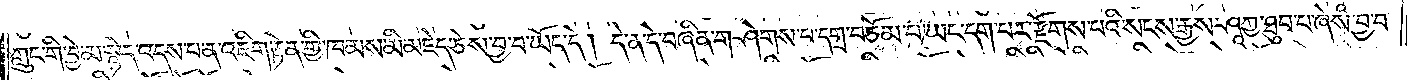ཀླུང་གི་བྱེ་མ་སྙེད་འདས་པ་ན་འཇིག་རྟེན་གྱི་ཁམས་མི་མཇེད་ཅེས་བྱ་བ་ཡོད་དེ། དེ་ན་དེ་བཞིན་གཤེགས་པ་དགྲ་བཅོམ་པ་ཡང་དག་པར་རྫོགས་པའི་སངས་རྒྱས་ཤཱཀྱ་ཐུབ་པ་ཞེས་བྱ་བ་
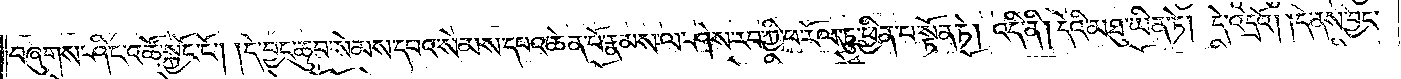བཞུགས་ཤིང་འཚོ་སྐྱོང་ངོ༌། །དེ་བྱང་ཆུབ་སེམས་དཔའ་སེམས་དཔའ་ཆེན་པོ་རྣམས་ལ་ཤེས་རབ་ཀྱི་ཕ་རོལ་ཏུ་ཕྱིན་པ་སྟོན་ཏེ། འདི་ནི། དེའི་མཐུ་ཡིན་ཏེ། དེ་འདྲའོ། །དེ་ནས་བྱང་
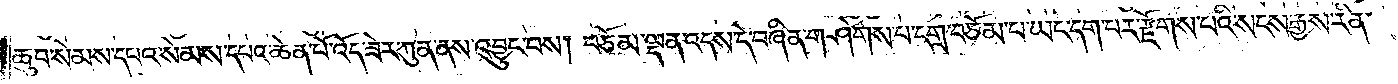ཆུབ་སེམས་དཔའ་སེམས་དཔའ་ཆེན་པོ་འོད་ཟེར་ཀུན་ནས་འབྱུང་བས། བཅོམ་ལྡན་འདས་དེ་བཞིན་གཤེགས་པ་དགྲ་བཅོམ་པ་ཡང་དག་པར་རྫོགས་པའི་སངས་རྒྱས་རིན་
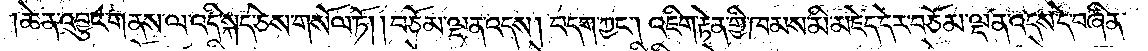ཆེན་འབྱུང་གནས་ལ་འདི་སྐད་ཅེས་གསོལ་ཏོ། །བཅོམ་ལྡན་འདས། བདག་ཀྱང༌། འཇིག་རྟེན་གྱི་ཁམས་མི་མཇེད་དེར་བཅོམ་ལྡན་འདས་དེ་བཞིན་
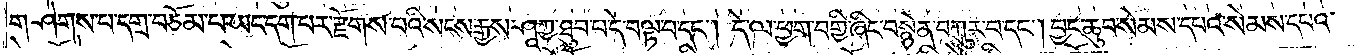གཤེགས་པ་དགྲ་བཅོམ་པ་ཡང་དག་པར་རྫོགས་པའི་སངས་རྒྱས་ཤཱཀྱ་ཐུབ་པ་དེ་བལྟ་བ་དང༌། དེ་ལ་ཕྱག་བགྱི་ཞིང་བསྙེན་བཀུར་བ་དང༌། བྱང་ཆུབ་སེམས་དཔའ་སེམས་དཔའ་
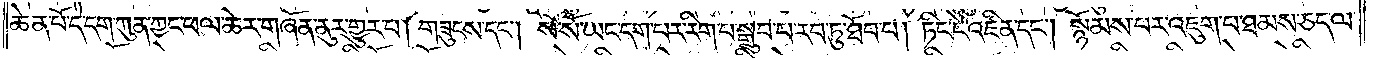ཆེན་པོ་དེ་དག་ཀུན་ཀྱང་ཕལ་ཆེར་གཞོན་ནུར་གྱུར་པ། གཟུངས་དང༌། སོ་སོ་ཡང་དག་པར་རིག་པ་སྒྲུབ་པ་རབ་ཏུ་ཐོབ་པ། ཏིང་ངེ་འཛིན་དང༌། སྙོམས་པར་འཇུག་པ་ཐམས་ཅད་ལ་
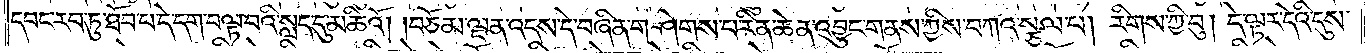དབང་རབ་ཏུ་ཐོབ་པ་དེ་དག་བལྟ་བའི་སླད་དུ་མཆིའོ། །བཅོམ་ལྡན་འདས་དེ་བཞིན་གཤེགས་པ་རིན་ཆེན་འབྱུང་གནས་ཀྱིས་བཀའ་སྩལ་པ། རིགས་ཀྱི་བུ། དེ་ལྟར་དེའི་དུས་
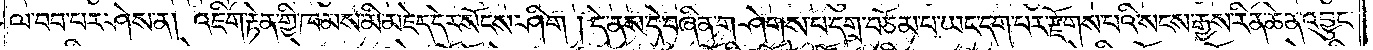ལ་བབ་པར་ཤེས་ན། འཇིག་རྟེན་གྱི་ཁམས་མི་མཇེད་དེར་སོངས་ཤིག །དེ་ནས་དེ་བཞིན་གཤེགས་པ་དགྲ་བཅོམ་པ་ཡང་དག་པར་རྫོགས་པའི་སངས་རྒྱས་རིན་ཆེན་འབྱུང་
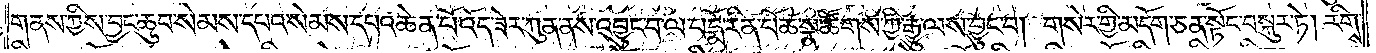གནས་ཀྱིས་བྱང་ཆུབ་སེམས་དཔའ་སེམས་དཔའ་ཆེན་པོ་འོད་ཟེར་ཀུན་ནས་འབྱུང་བ་ལ་པདྨོ་རིན་པོ་ཆེ་སྣ་ཚོགས་ཀྱི་རྒྱུ་ལས་བྱུང་བ། གསེར་གྱི་མདོག་ཅན་སྟོང་བསྐུར་ཏེ། རིགས་
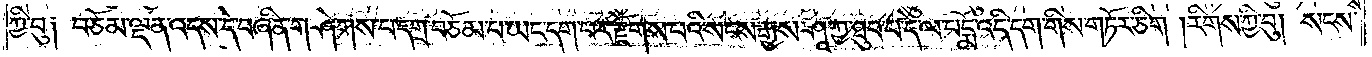ཀྱི་བུ༑ བཅོམ་ལྡན་འདས་དེ་བཞིན་གཤེགས་པ་དགྲ་བཅོམ་པ་ཡང་དག་པར་རྫོགས་པའི་སངས་རྒྱས་ཤཱ་ཀྱ་ཐུབ་པ་དེ་ལ་པདྨོ་འདི་དག་གིས་གཏོར་ཅིག །རིགས་ཀྱི་བུ། སངས་
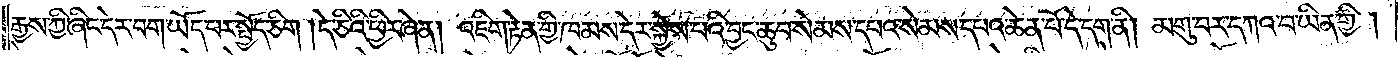རྒྱས་ཀྱི་ཞིང་དེར་བག་ཡོད་པར་སྤྱོད་ཅིག །དེ་ཅིའི་ཕྱིར་ཞེ་ན། འཇིག་རྟེན་གྱི་ཁམས་དེར་སྐྱེས་པའི་བྱང་ཆུབ་སེམས་དཔའ་སེམས་དཔའ་ཆེན་པོ་དེ་དག་ནི། མགུ་བར་དཀའ་བ་ཡིན་གྱི་།
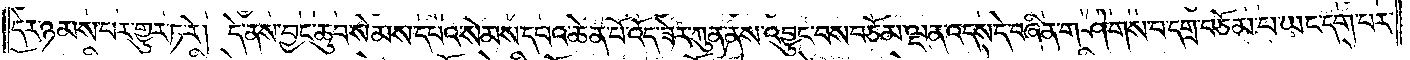དེར་ཉམས་པར་གྱུར་ཏ་རེ། དེ་ནས་བྱང་ཆུབ་སེམས་དཔའ་སེམས་དཔའ་ཆེན་པོ་འོད་ཟེར་ཀུན་ནས་འབྱུང་བས་བཅོམ་ལྡན་འདས་དེ་བཞིན་གཤེགས་པ་དགྲ་བཅོམ་པ་ཡང་དག་པར་
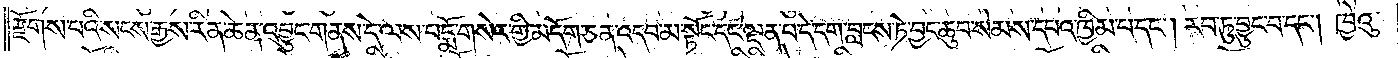རྫོགས་པའི་སངས་རྒྱས་རིན་ཆེན་འབྱུང་གནས་དེ་ལས་པདྨོ་གསེར་གྱི་མདོག་ཅན་འདབ་མ་སྟོང་དང་ལྡན་པ་དེ་དག་བླངས་ཏེ་བྱང་ཆུབ་སེམས་དཔའ་ཁྱིམ་པ་དང༌། རབ་ཏུ་བྱུང་བ་དང༌། ཁྱེའུ་
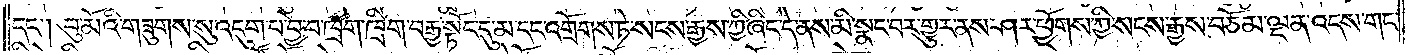དང༌། བུ་མོའི་གཟུགས་སུ་འདུག་པ་བྱེ་བ་ཁྲག་ཁྲིག་བརྒྱ་སྟོང་དུ་མ་དང་འགྲོགས་ཏེ་སངས་རྒྱས་ཀྱི་ཞིང་དེ་ནས་མི་སྣང་བར་གྱུར་ནས་ཤར་ཕྱོགས་ཀྱི་སངས་རྒྱས་བཅོམ་ལྡན་འདས་གང་
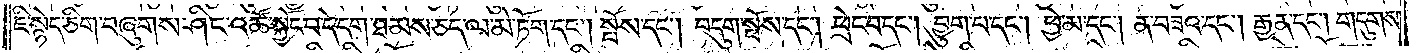ཇི་སྙེད་ཅིག་བཞུགས་ཤིང་འཚོ་སྐྱོང་བ་དེ་དག་ཐམས་ཅད་ལ་མེ་ཏོག་དང༌། སྤོས་དང༌། བདུག་སྤོས་དང༌། ཕྲེང་བ་དང༌། བྱུག་པ་དང༌། ཕྱེ་མ་དང༌། ན་བཟའ་དང༌། རྒྱན་དང༌། གདུགས་
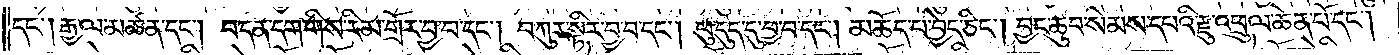དང༌། རྒྱལ་མཚན་དང༌། བ་དན་དག་གིས་རིམ་གྲོར་བྱ་བ་དང༌། བཀུར་སྟིར་བྱ་བ་དང༌། ཕུ་དུད་དུ་བྱ་བ་དང༌། མཆོད་པ་བྱེད་ཅིང༌། བྱང་ཆུབ་སེམས་དཔའི་རྫུ་འཕྲུལ་ཆེན་པོ་དང༌།
